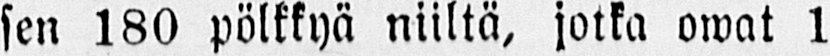sen 180 pölkkyä niiltä, jotka owat 1
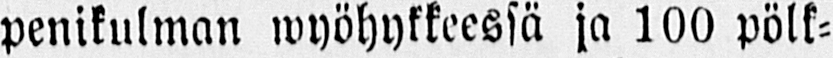penikulman wyöhykkeessä ja 100 pölk-
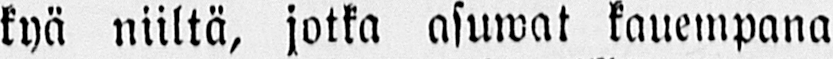kyä niiltä, jotka asuwat kauempana
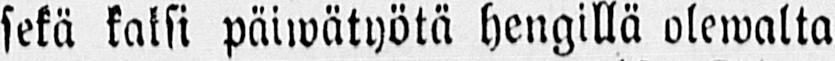sekä kaksi päiwätyötä hengillä olewalta
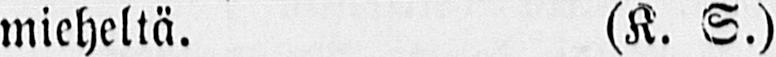mieheltä. (K. S.)
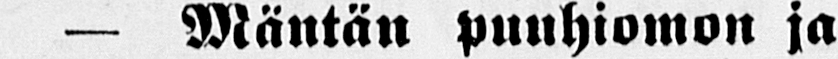— Mäntän puuhiomon ja
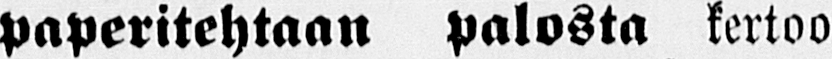paperitehtaan palosta kertoo
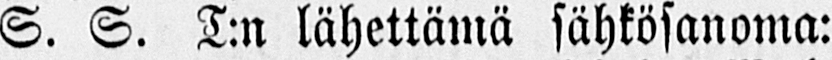S. S. T:n lähettämä sähkösanoma:
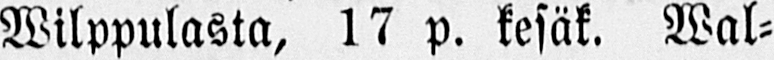Wilppulasta, 17 p. kesäk. Wal-
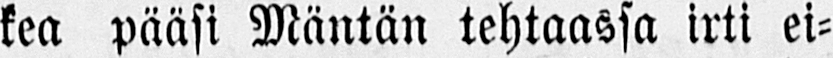kea pääsi Mäntän tehtaassa irti ei-
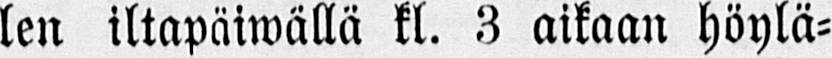len iltapäiwällä kl. 3 aikaan höylä-
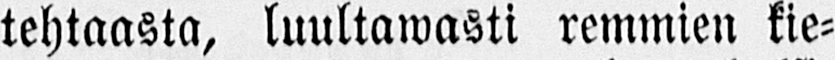tehtaasta, luultawasti remmien kie-
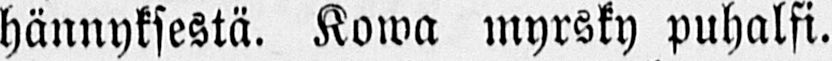hännyksestä. Kowa myrsky puhalsi.
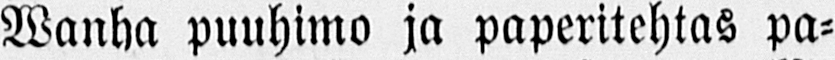Wanha puuhimo ja paperitehtas pa-
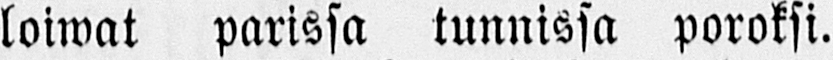loiwat parissa tunnissa poroksi.
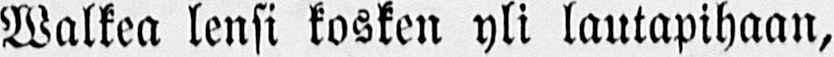Walkea lensi kosken yli lautapihaan,
